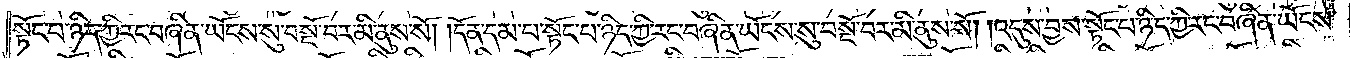སྟོང་པ་ཉིད་ཀྱི་རང་བཞིན་ཡོངས་སུ་བསྔོ་བར་མི་ནུས་སོ། །དོན་དམ་པ་སྟོང་པ་ཉིད་ཀྱི་རང་བཞིན་ཡོངས་སུ་བསྔོ་བར་མི་ནུས་སོ། །འདུས་བྱས་སྟོང་པ་ཉིད་ཀྱི་རང་བཞིན་ཡོངས་
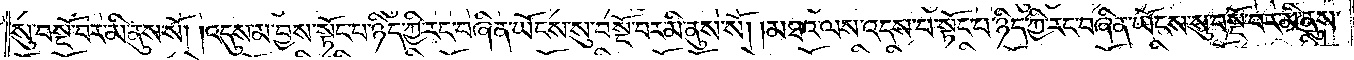སུ་བསྔོ་བར་མི་ནུས་སོ། །འདུས་མ་བྱས་སྟོང་པ་ཉིད་ཀྱི་རང་བཞིན་ཡོངས་སུ་བསྔོ་བར་མི་ནུས་སོ། །མཐའ་ལས་འདས་པ་སྟོང་པ་ཉིད་ཀྱི་རང་བཞིན་ཡོངས་སུ་བསྔོ་བར་མི་ནུས་
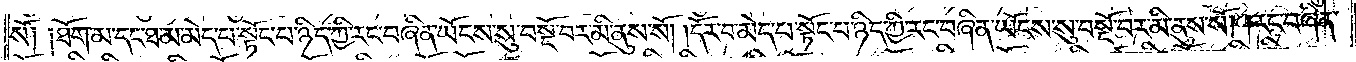སོ༑ ༑ཐོག་མ་དང་ཐ་མ་མེད་པ་སྟོང་པ་ཉིད་ཀྱི་རང་བཞིན་ཡོངས་སུ་བསྔོ་བར་མི་ནུས་སོ། །དོར་བ་མེད་པ་སྟོང་པ་ཉིད་ཀྱི་རང་བཞིན་ཡོངས་སུ་བསྔོ་བར་མི་ནུས་སོ། །རང་བཞིན་
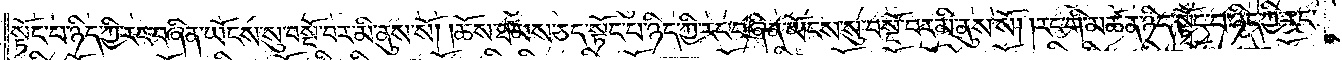སྟོང་པ་ཉིད་ཀྱི་རང་བཞིན་ཡོངས་སུ་བསྔོ་བར་མི་ནུས་སོ། །ཆོས་ཐམས་ཅད་སྟོང་པ་ཉིད་ཀྱི་རང་བཞིན་ཡོངས་སུ་བསྔོ་བར་མི་ནུས་སོ། །རང་གི་མཚན་ཉིད་སྟོང་པ་ཉིད་ཀྱི་རང་
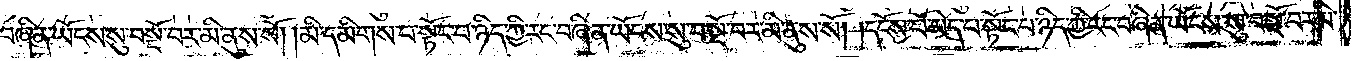བཞིན་ཡོངས་སུ་བསྔོ་བར་མི་ནུས་སོ། །མི་དམིགས་པ་སྟོང་པ་ཉིད་ཀྱི་རང་བཞིན་ཡོངས་སུ་བསྔོ་བར་མི་ནུས་སོ། །དངོས་པོ་མེད་པ་སྟོང་པ་ཉིད་ཀྱི་རང་བཞིན་ཡོངས་སུ་བསྔོ་བར་མི་
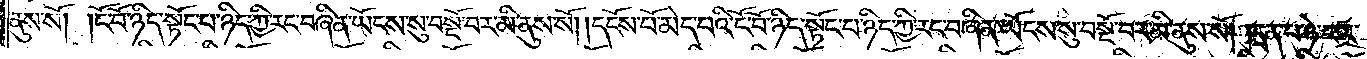ནུས་སོ། །ངོ་བོ་ཉིད་སྟོང་པ་ཉིད་ཀྱི་རང་བཞིན་ཡོངས་སུ་བསྔོ་བར་མི་ནུས་སོ། །དངོས་པོ་མེད་པའི་ངོ་བོ་ཉིད་སྟོང་པ་ཉིད་ཀྱི་རང་བཞིན་ཡོངས་སུ་བསྔོ་བར་མི་ནུས་སོ། །དྲན་པ་ཉེ་བར་
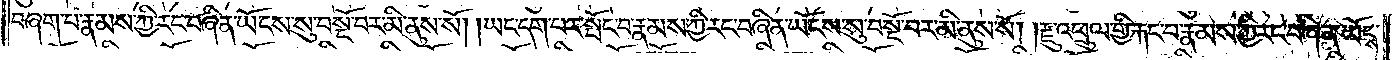བཞག་པ་རྣམས་ཀྱི་རང་བཞིན་ཡོངས་སུ་བསྔོ་བར་མི་ནུས་སོ། །ཡང་དག་པར་སྤོང་བ་རྣམས་ཀྱི་རང་བཞིན་ཡོངས་སུ་བསྔོ་བར་མི་ནུས་སོ། །རྫུ་འཕྲུལ་གྱི་རྐང་པ་རྣམས་ཀྱི་རང་བཞིན་ཡོངས་
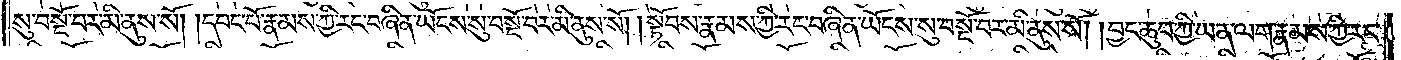སུ་བསྔོ་བར་མི་ནུས་སོ། །དབང་པོ་རྣམས་ཀྱི་རང་བཞིན་ཡོངས་སུ་བསྔོ་བར་མི་ནུས་སོ། །སྟོབས་རྣམས་ཀྱི་རང་བཞིན་ཡོངས་སུ་བསྔོ་བར་མི་ནུས་སོ། །བྱང་ཆུབ་ཀྱི་ཡན་ལག་རྣམས་ཀྱི་རང་
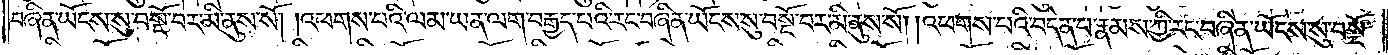བཞིན་ཡོངས་སུ་བསྔོ་བར་མི་ནུས་སོ། །འཕགས་པའི་ལམ་ཡན་ལག་བརྒྱད་པའི་རང་བཞིན་ཡོངས་སུ་བསྔོ་བར་མི་ནུས་སོ། །འཕགས་པའི་བདེན་པ་རྣམས་ཀྱི་རང་བཞིན་ཡོངས་སུ་བསྔོ་
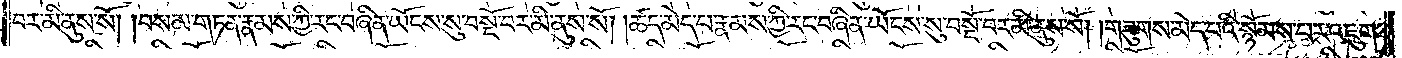བར་མི་ནུས་སོ། །བསམ་གཏན་རྣམས་ཀྱི་རང་བཞིན་ཡོངས་སུ་བསྔོ་བར་མི་ནུས་སོ། །ཚད་མེད་པ་རྣམས་ཀྱི་རང་བཞིན་ཡོངས་སུ་བསྔོ་བར་མི་ནུས་སོ། །གཟུགས་མེད་པའི་སྙོམས་པར་འཇུག་
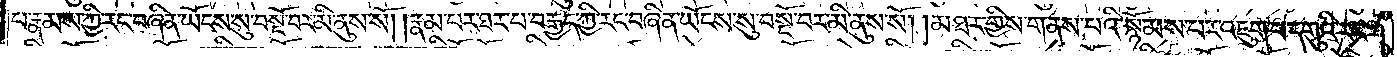པ་རྣམས་ཀྱི་རང་བཞིན་ཡོངས་སུ་བསྔོ་བར་མི་ནུས་སོ། །རྣམ་པར་ཐར་པ་བརྒྱད་ཀྱི་རང་བཞིན་ཡོངས་སུ་བསྔོ་བར་མི་ནུས་སོ། །མཐར་གྱིས་གནས་པའི་སྙོམས་པར་འཇུག་པ་དགུའི་རང་
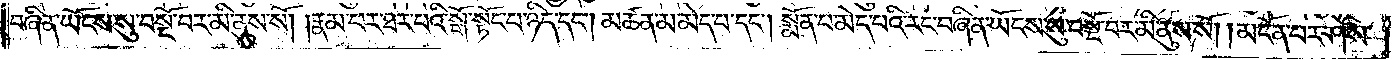བཞིན་ཡོངས་སུ་བསྔོ་བར་མི་ནུས་སོ། །རྣམ་པར་ཐར་པའི་སྒོ་སྟོང་པ་ཉིད་དང༌། མཚན་མ་མེད་པ་དང༌། སྨོན་པ་མེད་པའི་རང་བཞིན་ཡོངས་སུ་བསྔོ་བར་མི་ནུས་སོ། །མངོན་པར་ཤེས་
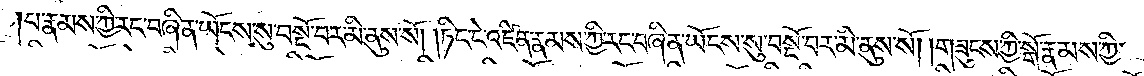པ་རྣམས་ཀྱི་རང་བཞིན་ཡོངས་སུ་བསྔོ་བར་མི་ནུས་སོ། །ཏིང་ངེ་འཛིན་རྣམས་ཀྱི་རང་བཞིན་ཡོངས་སུ་བསྔོ་བར་མི་ནུས་སོ། །གཟུངས་ཀྱི་སྒོ་རྣམས་ཀྱི་
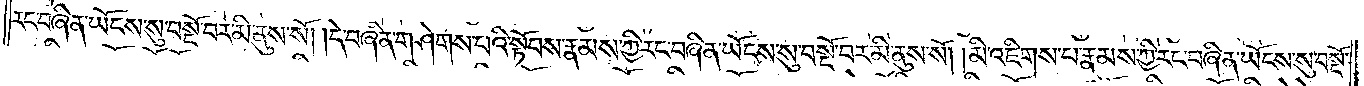རང་བཞིན་ཡོངས་སུ་བསྔོ་བར་མི་ནུས་སོ། །དེ་བཞིན་གཤེགས་པའི་སྟོབས་རྣམས་ཀྱི་རང་བཞིན་ཡོངས་སུ་བསྔོ་བར་མི་ནུས་སོ། །མི་འཇིགས་པ་རྣམས་ཀྱི་རང་བཞིན་ཡོངས་སུ་བསྔོ་
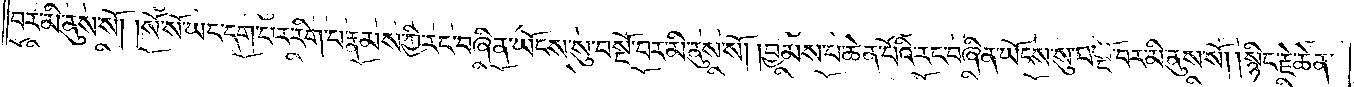བར་མི་ནུས་སོ། །སོ་སོ་ཡང་དག་པར་རིག་པ་རྣམས་ཀྱི་རང་བཞིན་ཡོངས་སུ་བསྔོ་བར་མི་ནུས་སོ། །བྱམས་པ་ཆེན་པོའི་རང་བཞིན་ཡོངས་སུ་བསྔོ་བར་མི་ནུས་སོ། །སྙིང་རྗེ་ཆེན་
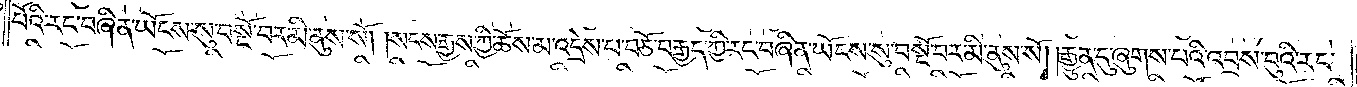པོའི་རང་བཞིན་ཡོངས་སུ་བསྔོ་བར་མི་ནུས་སོ། །སངས་རྒྱས་ཀྱི་ཆོས་མ་འདྲེས་པ་བཅོ་བརྒྱད་ཀྱི་རང་བཞིན་ཡོངས་སུ་བསྔོ་བར་མི་ནུས་སོ། །རྒྱུན་དུ་ཞུགས་པའི་འབྲས་བུའི་རང་
